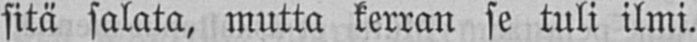sitä salata, mutta kerran se tuli ilmi.
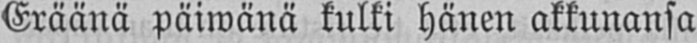Eräänä päiwänä kulki hänen akkunansa
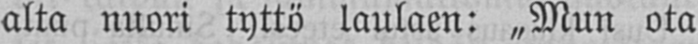alta nuori tyttö laulaen: „Mun ota
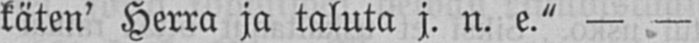käten' Herra ja taluta j. n. e." — —
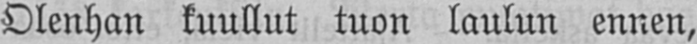Olenhan kuullut tuon laulun ennen,
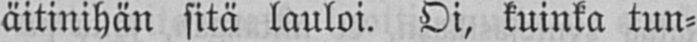äitiinhän sitä lauloi. Oi, kuinka tun-
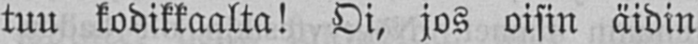tuu kodikkaalta! Oi, jos oisin äidin
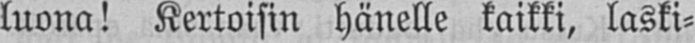luona! Kertoisin hänelle kaikki, laski-
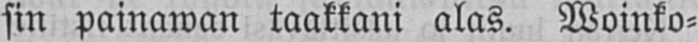sin painawan taakkani alas. Woinko-
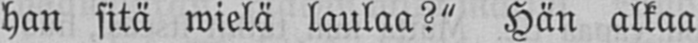han sitä wielä laulaa?" Hän alkaa
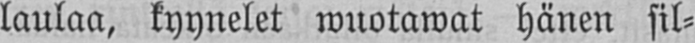laulaa, kyynelet wuotawat hänen sil-
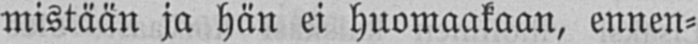mistään ja hän ei huomaakaan, ennen-
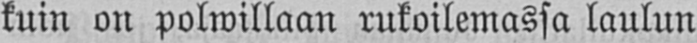kuin on polwillaan rukoilemassa laulun
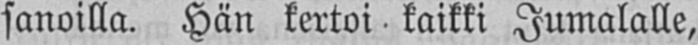sanoilla. Hän kertoi kaikki Jumalalle,
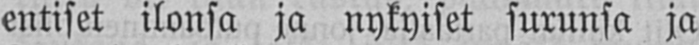entiset ilonsa ja nykyiset surunsa ja
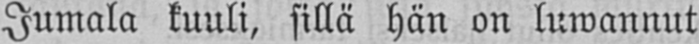Jumala kuuli, sillä hän on luwannut
